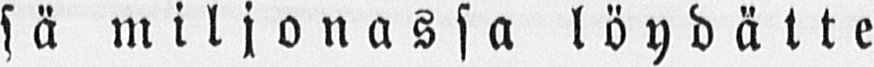sä miljonassa löydätte
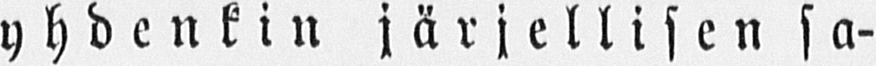yhdenkin järjellisen sa-
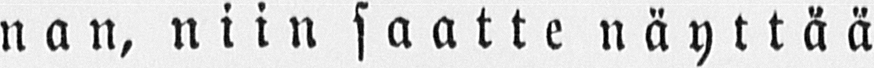nan, niin saatte näyttää
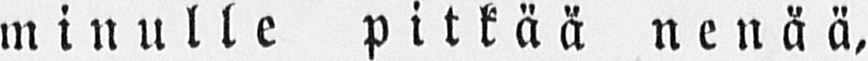minulle pitkää nenää,
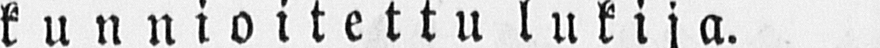kunniotettu lukija.
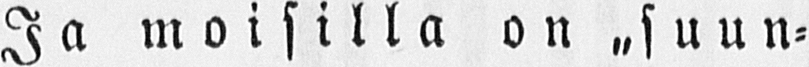Ja moisilla on „suun-
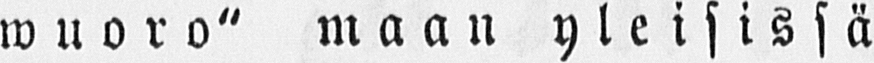wuoro" maan yleisissä
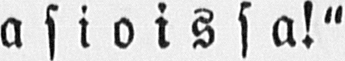asioissa!"
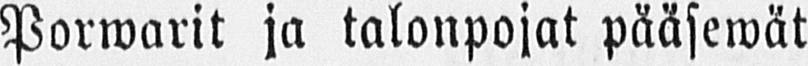Porwarit ja talonpojat pääsewät
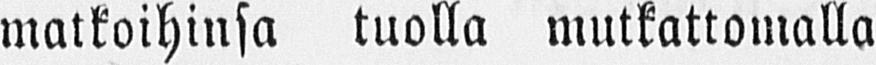matkoihinsa tuolla mutkattomalla
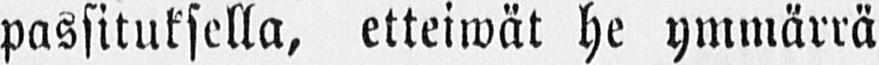passituksella, etteiwät he ymmärrä
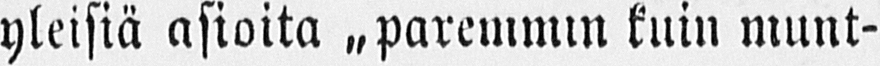yleisiä asioita ˶paremmn kuin muut-
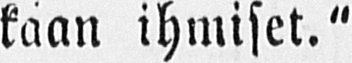kaan ihmiset."
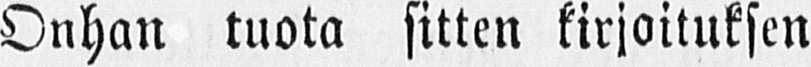Onhan tuota sitten kirjoituksen
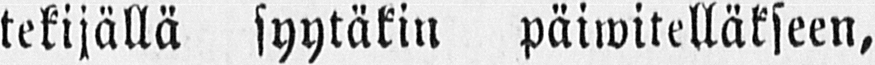tekijällä syytäkin päiwitelläkseen,
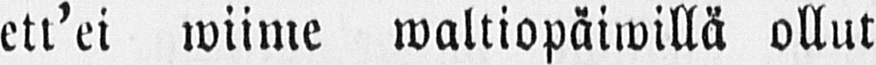ett'ei wiime waltiopäiwillä ollut
